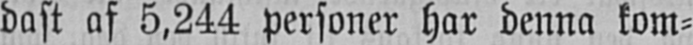dast af 5,244 personer har denna kom-
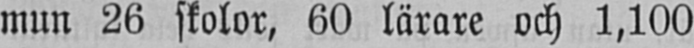mun 26 skolor, 60 lärare och 1,100
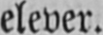elever.
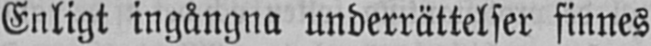Enligt ingångna underrättelser finnes
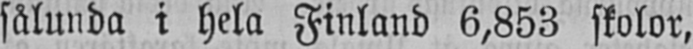sålunda i hela Finland 6,853 skolor,
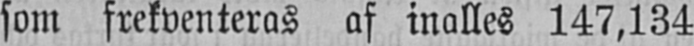som frekventeras af inalles 147,134
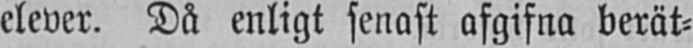elever. Då enligt senast afgifna berät-
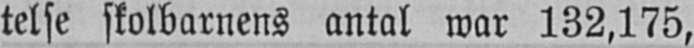telse skolbarnens antal war 132,175,
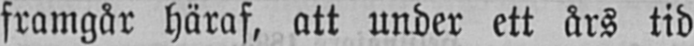framgår häraf, att under ett års tid
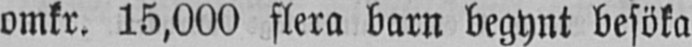omkr. 15,000 flera barn begynt besöka
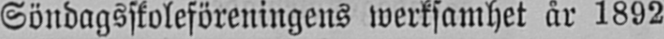Söndagsskoleföreningens werksamhet år 1892
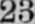23
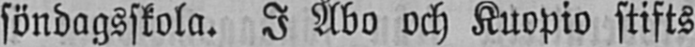söndagsskola. I Åbo och Kuopio stifts
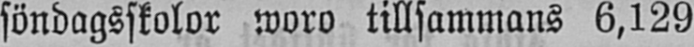söndagsskolor woro tillsammans 6,129
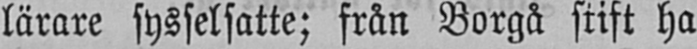lärare sysselsatte; från Borgå stift ha
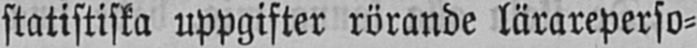statistiska uppgifter rörande lärareperso-
